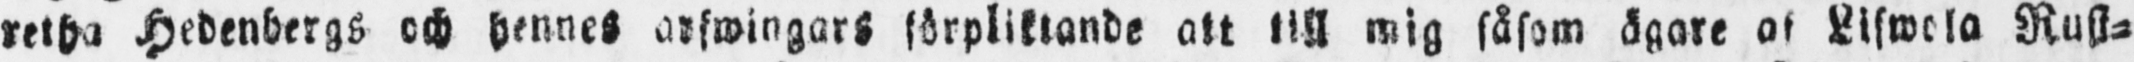retha Hedenbergs och hennes arfwingars förpliktande att till mig såsom ägare af Lifwola Rust-
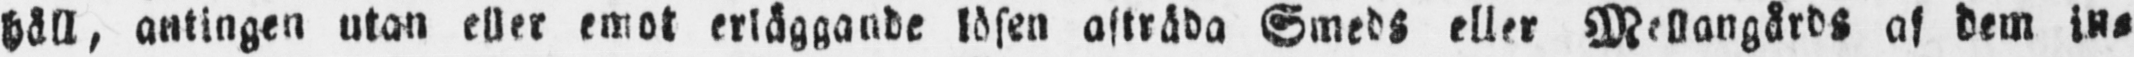håll, antingen utan eller emot erläggande lösen afträda Smeds eller Mellangårds af dem in-
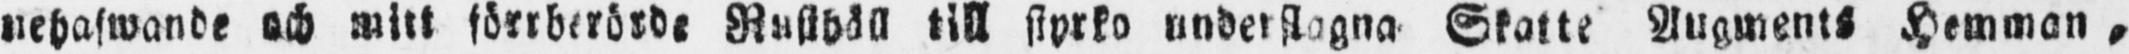nehafwande och mitt förrberörde Rusthåll till styrko underslagna Skatte Augments Hemman,
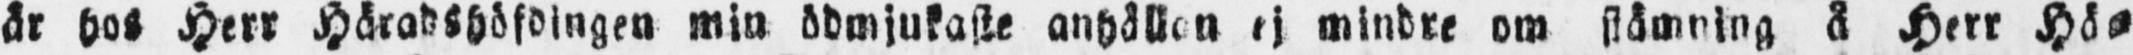är hos Herr Häradshöfdingen min ödmjukaste anhållan ej mindre om stämning å Herr Hä-
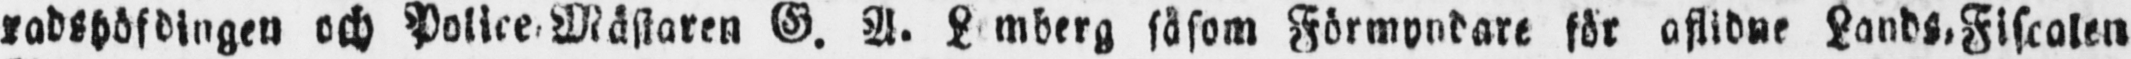radshöfdingen och Police-Mästaren G. A. Lemberg såsom Förmyndare för aflidne Lands-Fiscalen
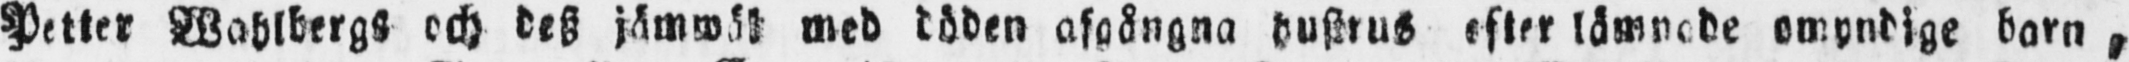Petter Wahlbergs och desz jämwäl med döden afgångna hustrus efter lämnade omyndige barn ,
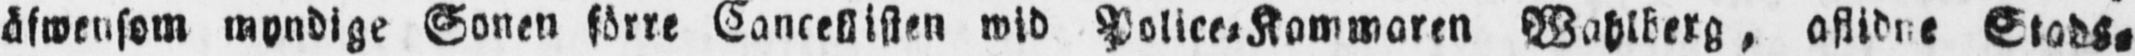äfwensom myndige Sonen förre Cancellisten wid Police-Kammaren Wahlberg, aflidne Stads-
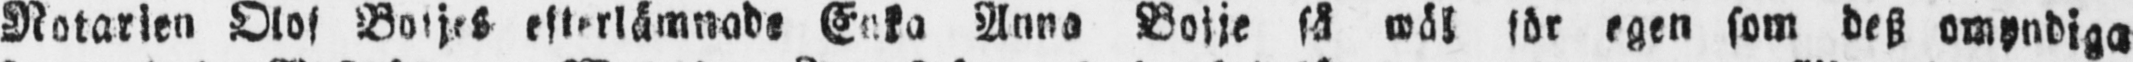Notarien Olof Boijes efterlämnade Enka Anna Bolje så wäl för egen som desz omyndiga
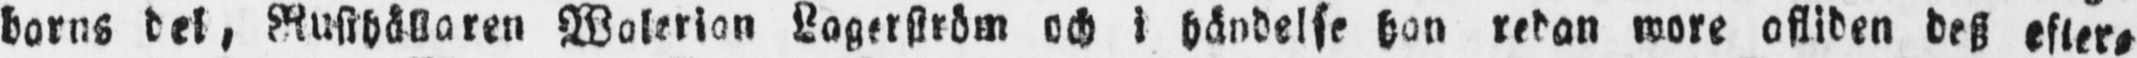barns del, Rusthållaren Walerian Lagerström och i händelse han redan wore afliden desz efter-
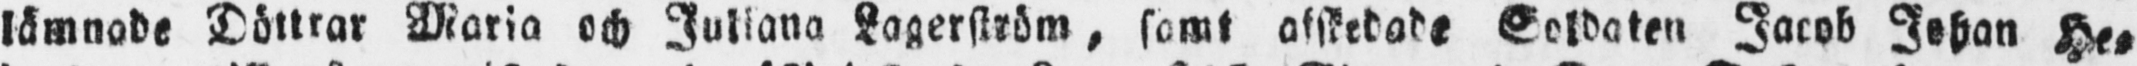lämnade Döttrar Maria och Juliana Lagerström, samt afskedade Soldaten Jacob Johan He-
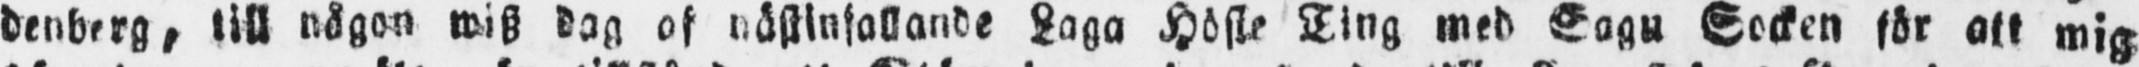denberg, till någon wisz dag af nästinfallande Laga Höste Ting med Sagu Socken för att mig
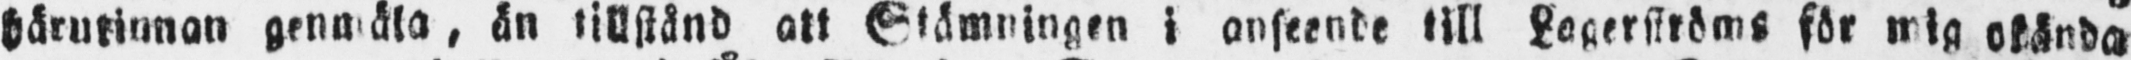härutinnan genmäla , än tillstånd att Stämningen i anseende till Lagerströms för mig okända
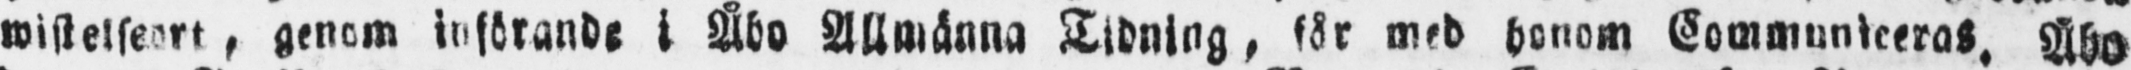wistelseort, genom införande i Åbo Allmänna Tidning, får med honom Communiceras. Åbo
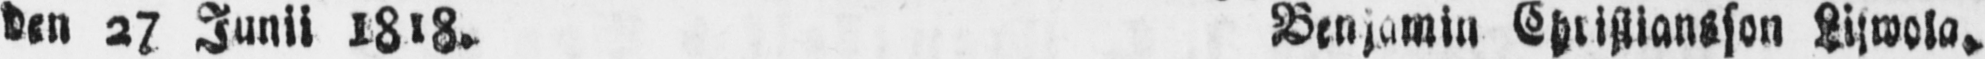den 27 Junii 1818. Benjamin Christiansson Lifwola.
